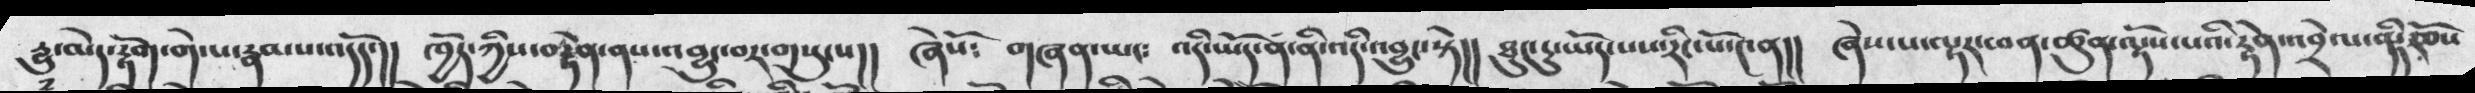རྱུ་མེད་རྟོག་གེ་པ་རྣམས་འདོད་།།  ཁྱོད་ཀྱིས་བརྟེན་ནས་འབྱུང་བར་གསུངས།།  ཞེསོ༴   གཞན་ཡང༴  འདི་ཡོད་ན་ནི་འདི་འབྱུང་སྟེ།།  ཐུད་ངུ་ཡོད་པས་རིང་པོ་༤ན།།  ཞེས་པ་ལྟར་ཕན་ཚུན་ལྟོས་པའི་རྟེན་འབྲེལ་ནི་ཆོས
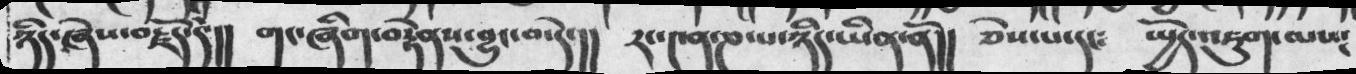ཉིད་ཞེས་བརྗོད་དེ་།།   གང་ཞིག་བརྟེནས་བྱུང་བ་དེ་།།   རང་༤ན་ཎ་པ་ཉིད་ཡིན་ནོ།།  ཅེས་པ་དང༴  ཡྱོད་འཇུག་ལས༴
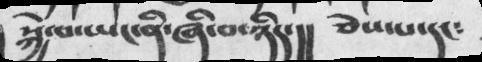སྐྱེ་བ་ཡང་ནི་ཞི་བ་ཉིད་།།  ཅེས་པ་དང༴
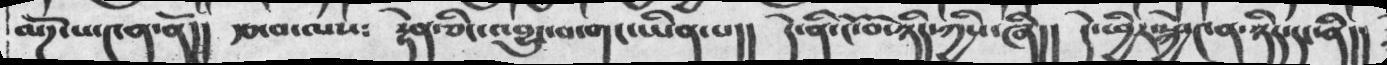མོཌ་པ་༤ན་ནོ།།  རྩ་བ་ལས༴  རྟེན་ཅིང་འབྱུང་བ་གང་ཡིན་པ།།  དེ་ནི་ངོ་བོ་ཉིད་ཀྱིས་ཞི།།  དེ་ཕྱིར་སྐྱེབ༤ན་ཉིད་དང་ནི།།
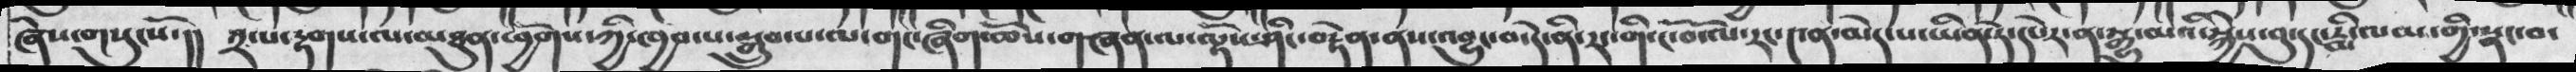ཞེས་གསུངསོ་།།  ༢་པ་རྟགས་ལ་མཐུན་ཕྱོགས་ཀྱི་ཁྱབ་པ་སྒྲུབ་པ་ལ་གང་ཞིག་ཆོས་གཞན་ལ་ལྟོས་ཤིང་བརྟེན་ནས་འབྱུང་བ་དེ་ནི་རང་གི་ངོ་བོ་ལ་རང་༤ན་མེད་པ་ཡིན་དེ་དཔེར་ན་སྒྱུ་མའི་སྐྱེས་བུ་དང་རྨི་ལམ་གྱི་སྣང་བ་
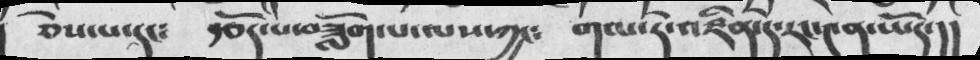ཅེས་པ་དང༴  རྩོད་པ་བཟློག་པ་ལས་ཀྱང༴  གལ་དེ་འཛིན་དེ་རང་༤ན་ཡོད་།།
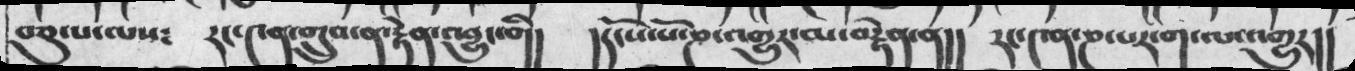བཅུ་པ་ལས༴  རང་༤ན་གྲུབ་ན་རྟེན་འབྱུང་གི།  །དངོས་པོ་ཎ་འགྱུར་མ་བརྟེན་ན།།  རང་༤ན་ཎ་པར་ག་ལ་འགྱུར།།
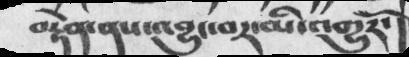བརྟེན་ནས་འབྱུང་བར་མི་འགྱུརོ་།།
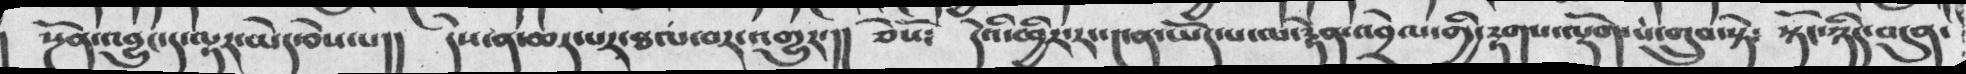སྔོན་འབྱུང་ད་ལྟར་ཡེད་ཅེས་པ།།  དེས་ན་ཆད་པར་ཐལ་བར་འགྱུར་།།  ཅེསོ༴  དེའི་ཕྱིར་རང་༤ན་ཡོད་པ་ལ་རྟེན་འབྲེལ་གྱི་རྟགས་ལྟོག་པ་གྲུབ་སྟེ༴  སྟོང་ཉིད་བདུན་
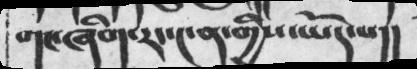གང་ཞིག་རང་༤ན་གྱིས་ཡོད་པ།།
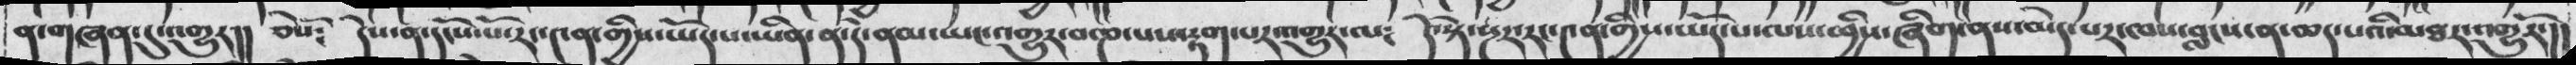ན་གཞན་དུ་འགྱུར།། ཅེསོ༴  དེས་ན་དངོས་པོ་རང་༤ན་གྱིས་ཡོད་པ་ཡིན་ན་དེ་ནམ་ཡང་འགྱུར་བ་ཎ་པས་རྟག་པར་འགྱུར་ལ༴  དེ་སྟེ་ཤས་རབ་༤ན་གྱིས་ཡོད་པ་ལས་ཕྱིས་ཞིག་ནས་མེད་པར་ཁས་བླངས་ན་ཆད་པའི་མཐར་འགྱུརོ་།།
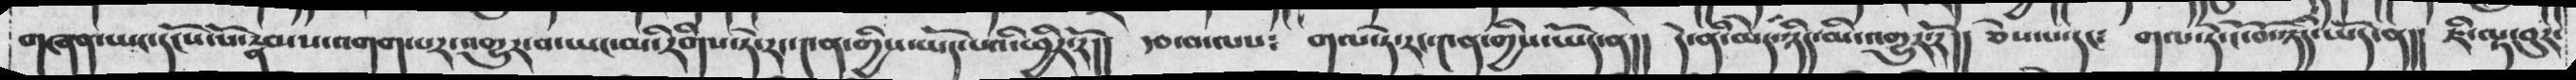གཞན་ཡང་དངོས་པོ་རྣམས་འགག་པར་འགྱུར་བ་ཡང་མི་རིགས་ཏེ་རང་༤ན་གྱིས་ཡོད་པའི་ཕྱིར་རོ།།  རྩ་བ་ལས༴  གལ་ཏེ་རང་༤ན་གྱིས་ཡོད་ན།།   དེ་ནི་མེད་ཉིད་མི་འགྱུར་རོ།།   ཅེསཔ་དང༴  གལ་ཏེ་ངོ་བོ་ཉིད་ཡོད་ན།།  ཇི་ལྟ་བུར་
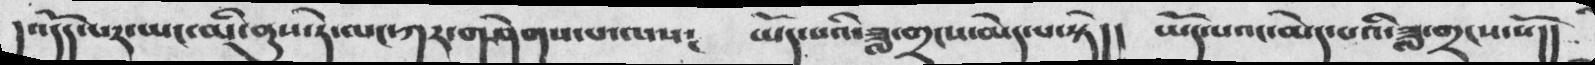། འདོད་པར་ཡང་མི་ནུས་ཏེ་ལང་ཀར་གཤེགས་པ་ལས༴   ཡོད་པའི་ཟླ་གྲངས་མེད་པ་སྟེ།།    ཡོད་པའང་མེད་པའི་ཟླ་གྲངས་སོ།།
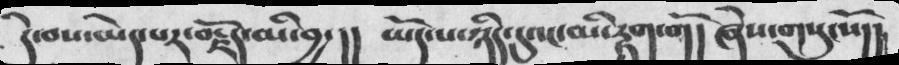དེ་བས་མེད་པར་བརྗོད་མི་བྱ་།།   ཡོད་པ་ཉིད་དུའང་མི་རྟག་གོ།།  ཞེས་གསུངསོ།།
